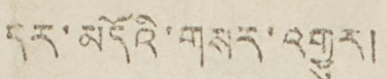དར་མདོའི་གསར་འགྱུར།
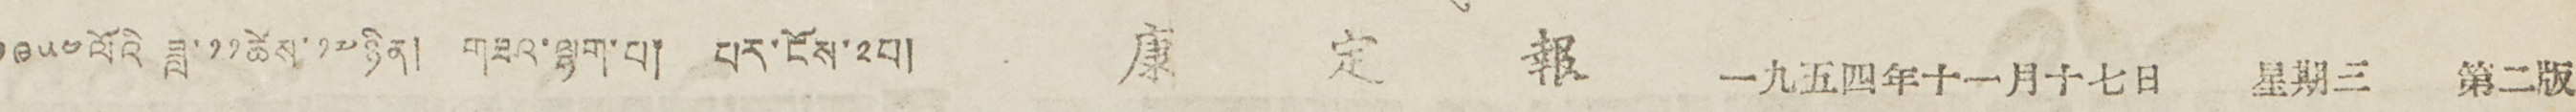༡༩༥༤ལོའི ཟླ་༡༡ཚེས་༡༧ཉིན། གཟའ་ལྷག་པ། པར་ངོས་༢པ། 康 定 報 一九五四年十一月十七日 星期三 第二版
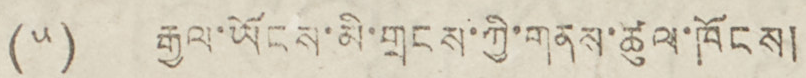(༥) རྒྱལ་ཡོངས་མི་གྲངས་ཀྱི་གནས་ཚུལ་ཁོངས།
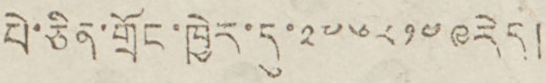པེ་ཅིན་གྲོང་ཁྱེར་དུ་༢༧༦༨༡༤༩རེད།
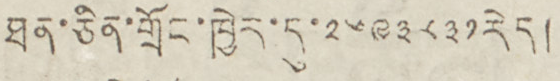ཐན་ཅིན་གྲོང་ཁྱེར་དུ་༢༤༩༣༨༣༡རེད།
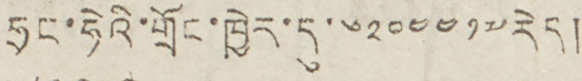ཧྲང་ཧེའི་གྲོང་ཁྱེར་དུ་༦༢༠༤༤༡༧རེད།
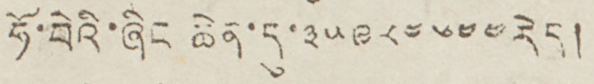ཧོ་བེའི་ཞིང་ཆེན་དུ་༣༥༩༨༤༦༤༤རེད།
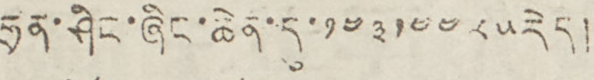ཧྲན་ཤིང་ཞིང་ཆེན་དུ་༡༤༣༡༤༤༨༥རེད།
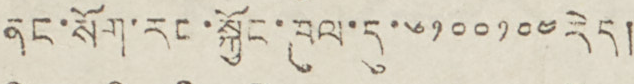ནང་སོག་རང་སྐྱོང་ཁུལ་དུ་༦༡༠༠༡༠༤རེད།
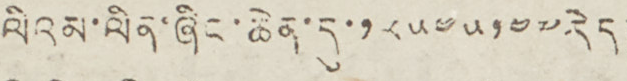ལིའམ་ལིན་ཞིང་ཆེན་དུ་༡༨༥༤༥༡༤༧རེད།
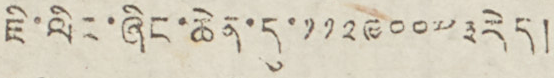ཇི་ལིང་ཞིང་ཆེན་དུ་༡༡༢༩༠༠༧༣རེད།
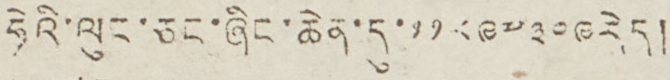ཧེའི་ལུང་ཅང་ཞིང་ཆེན་དུ་༡༡༨༩༧༣༠༩རེད།
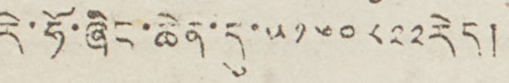རེ་ཧོ་ཞིང་ཆེན་དུ་༥༡༦༠༨༢༢རེད།
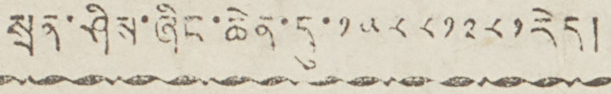སྲན་ཤིས་ཞིང་ཆེན་དུ་༡༥༨༨༡༢༨༡རེད།
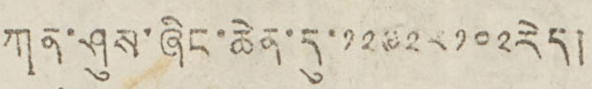ཀན་ཤུས་ཞིང་ཆེན་དུ་༡༢༩༢༨༡༠༢རེད།
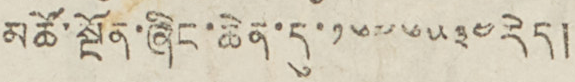མཚོ་སྔོན་ཞིང་ཆེན་དུ་༡༦༧༦༥༣༤རེད།
